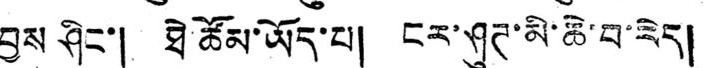བྱས ཤིང་། ཐེ་ཚོམ་ཡོད་པ། ངར་ཤུཊ་མི་ཆེ་བ་རེད།
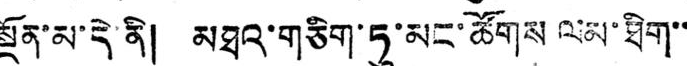སྔོན་མ་དེ་ནི། མཐའ་གཅིག་ཏུ་མང་ཚོགས ལམ་ཐིག་་
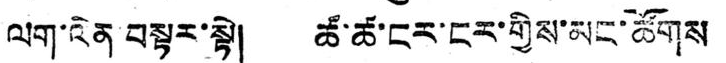ལག་ལེན་བསྟར་སྟེ། ཚ་ཚ་ངར་ངར་གྱིས་མང་ཚོགས
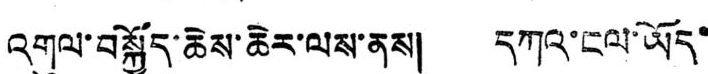འགུལ་བསྐྱོད་ཆེས་ཆེར་ལས་ནས། དཀའ་ངལ་ཡོད་
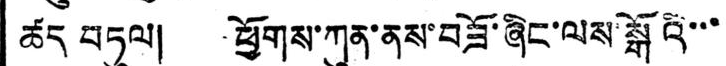ཚད བཏུལ། ཕྱོགས་ཀུན་ནས་བཟོ་ཞིང་ལས་སྒོའི་་་
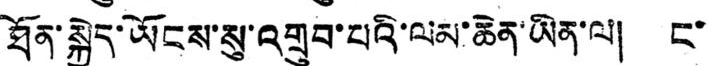ཐོན་སྐྱེད་ཡོངས་སུ་འགྲུབ་པའི་ལམ་ཆེན་ཡིན་ལ། ང་
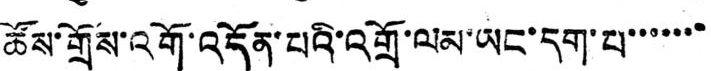ཚོས་གྲོས་འགོ་འདོན་པའི་འགྲོ་ལམ་ཡང་དག་པ་་་་་་་
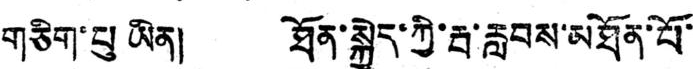གཅིག་པུ ཡིན། ཐོན་སྐྱེད་ཀྱི་རྦ་རླབས་མཐོན་པོ་་
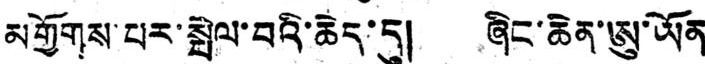མགྱོགས་པར་སྤེལ་བའི་ཆེད་དུ། ཞིང་ཆེན་ཨུ་ཡོན
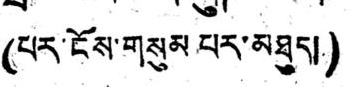(པར་ངོས་གསུམ པར་མཐུད།)
